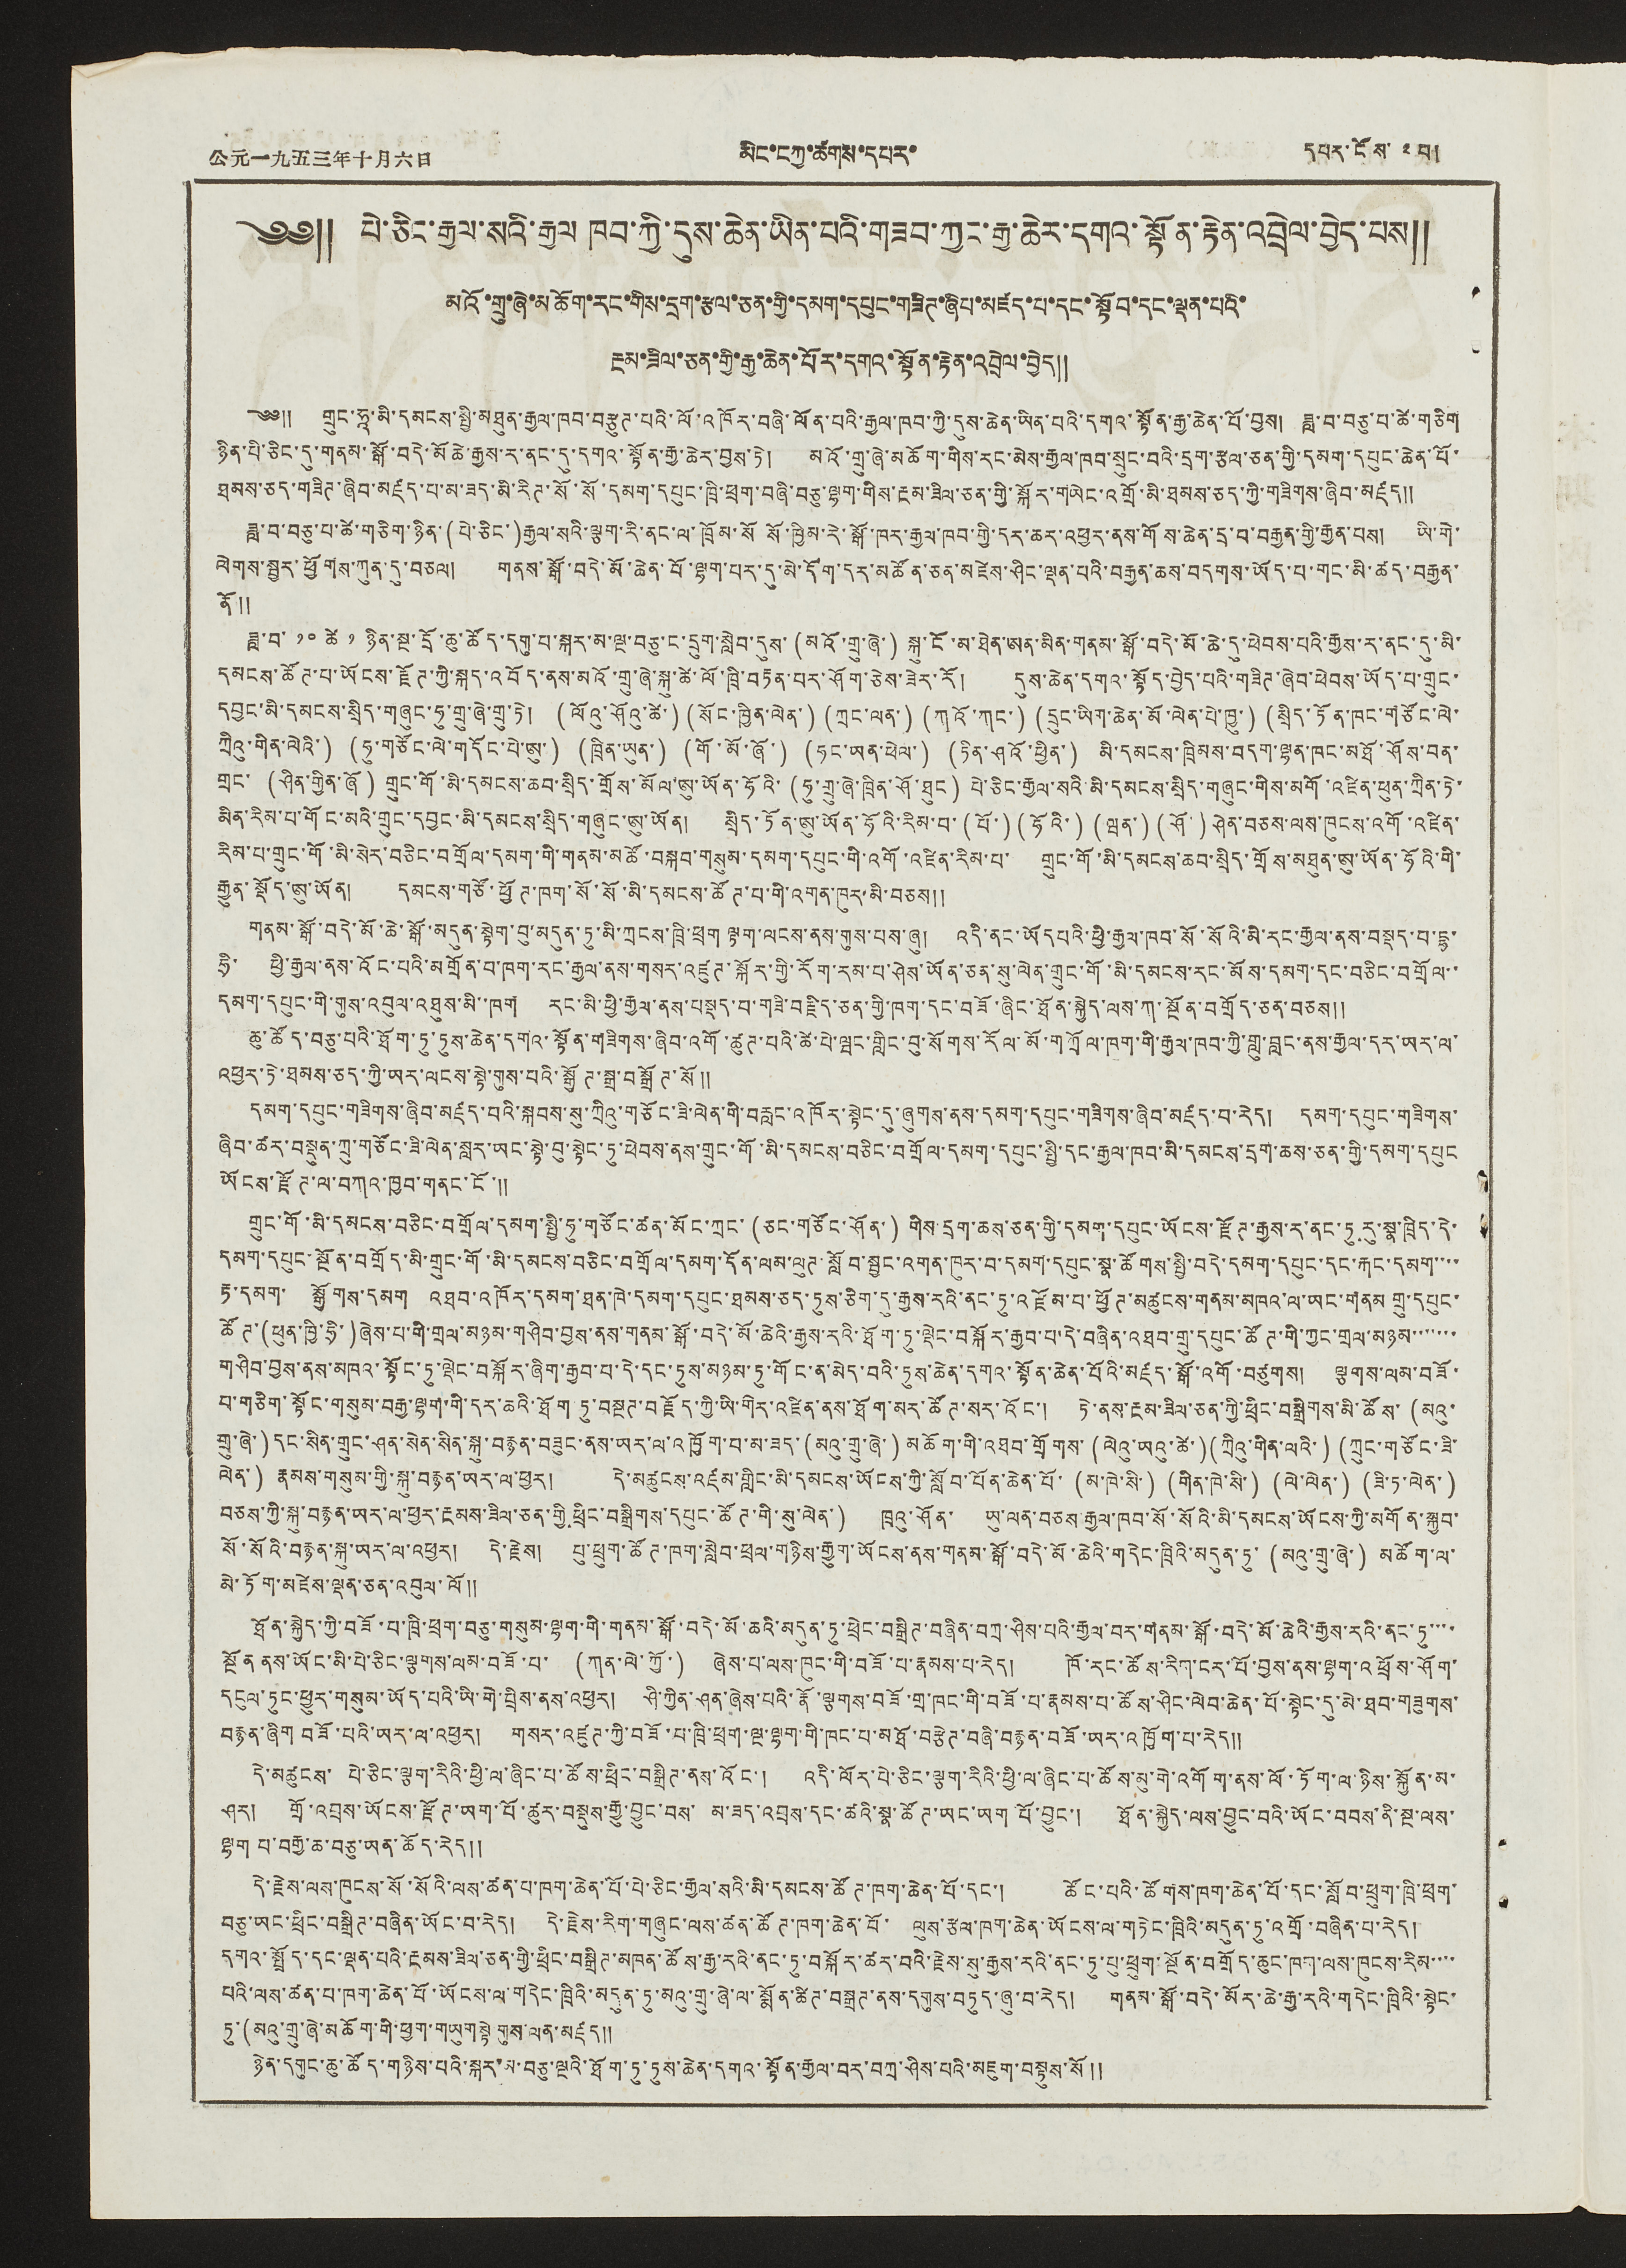公元一九五三年十月六日 མིང་ངཀྱ་ཚགས་དཔར་ དཔར་ངོས་ ༢བ།
༄༅༎ པེ་ཅིང་རྒྱལ་སའི་རྒྱལ ཁབ་ཀྱི་དུས་ཆེན་ཡིན་པའི་གཟབ་ཀྱང་རྒྱ་ཆེར་དགའ་སྟོན་རྟེན་འབྲེལ་བྱེད་པས༎
མའོ་གྲུ་ཞེ་མཆོག་རང་གིས་དྲག་རྩལ་ཅན་གྱི་དམག་དཔུང་གཟིཊ་ཞིབ་མཛད་པ་དང་སྟོབ་དང་ལྡན་པའི་
རྔམ་ཟིལ་ཅན་གྱི་རྒྱ་ཆེན་པོར་དགའ་སྟོན་རྟེན་འབྲེལ་བྱེད༎
༄༅༎ གྲུང་ཧཱ་མི་དམངས་སྤྱི་མཐུན་རྒྱལ་ཁབ་བརྩུཊ་པའི་ལོ་འཁོར་བཞི་ལོན་པའི་རྒྱལ་ཁབ་ཀྱི་དུས་ཆེན་ཡིན་པའི་དགའ་སྟོན་རྒྱ་ཆེན་པོ་བྱས། ཟླ་བ་བཅུ་པ་ཚེ་གཅིག
ཉིན་པི་ཅིང་དུ་གནམ་སྒོ་བདེ་མོ ཆེ་རྒྱས་ར་ནང་དུ་དགའ་སྟོན་རྒྱ་ཆེར་བྱས་ཏེ། མའོ་གྲུ་ཞེ་མཆོག་གིས་རང་མེས་རྒྱལ་ཁབ་སྲུང་བའི་དྲག་རྩལ་ཅན་གྱི་དམག་དཔུང་ཆེན་པོ་
ཐམས་ཅད་གཟིཊ་ཞིབ་མཛད་པ་མ་ཟད་མི་རིཊ་སོ་སོ་དམག་དཔུང་ཁྲི་ཕྲག་བཞི་བཅུ་ལྷག་གིས་རྔམ་ཟིལ་ཅན་གྱི་སྐོར་གཡེང་འགྲོ་མི་ཐམས་ཅད་ཀྱི་གཟིགས་ཞིབ་མཛད༎
ཟླ་བ་བཅུ་པ་ཚེ་གཅིག་ཉིན་(པེ་ཅིང་)རྒྱལ་སའི་ལྕག་རི་ནང་ལ་ཁྲོམ་སོ སོ་ཁྱིམ་རེ་སྒོ་ཁར་རྒྱལ་ཁབ་གྱི་དར་ཆར་འཕྱར་ནས་གོས་ཆེན་དྲ་བ་བརྒྱན་གྱི་རྒྱན་པས། ཡི་གེ་
ལེགས་སྦྱར་ཕྱོགས་ཀུན་དུ་བཅལ། གནས་སྒོ་བདེ་མོ་ཆེན་པོ་ལྷག་པར་དུ་མེ་དོག་དར་མཚོན་ཅན་མཛེས་ཤིང་ལྡན་པའི་བརྒྱན་ཆས་བདགས་ཡོད་པ་གང་མི་ཚད་བརྒྱན་
ནོ༎
ཟླ་བ་ ༡༠ ཚེ ༡ ཉིན་སྔ་དྲོ་ཆུ་ཚོད་དགུ་པ་སྐར་མ་ལྔ་བཅུ་ང་དྲུག་སླེབ་དུས་(མའོ་གྲུ་ཞེ་) སྐུ་ངོ་མ་ཐེན་ཨན་མིན་གནམ་སྒོ་བདེ་མོ་ཆེ་དུ་ཕེབས་པའི་རྒྱས་ར་ནང་དུ་མི་
དམངས་ཚོཊ་པ་ཡོངས་རྫོཊ་ཀྱི་སྐད་འབོད་ནས་མའོ་གྲུ་ཞེ་སྐུ་ཚེ་ལོ་ཁྲི་བརྟན་པར་ཤོག་ཅེས་ཟེར་རོ། དུས་ཆེན་དགའ་སྟོད་བྱེད་པའི་གཟིཊ་ཞེབ་ཕེབས་ཡོད་པ་གྲུང་
དབྱང་མི་དམངས་སྲིད་གཞུང་ཧུ་གྲུ་ཞེ་གྲུ་ཏེ། (ལོའུ་ཤོའུ་ཚེ་) (སོང་ཁྱིན་ལེན་) (ཀྲང་ལན་) (ཀའོ་ཀང་) (ཀྲུང་ཡིག་ཆེན་མོ་ལེན་པེ་ཁྱུ་) (སྲིད་ཏོན་ཁང་གཙོང་ལེ་
ཀྲིའུ་གིན་ལེའི་) (ཧུ་གཙོང་ལེ་གདོང་པེ་ཨུ་) (ཁྲིན་ཡུན་) (གོ་མོ་ཞོ་) (ཧང་ཡན་ཕེལ་) (ཏིན་ཤའོ་ཕྱིན་) མི་དམངས་ཁྲིམས་བདག་ལྷན་ཁང་མཐོ་ཤོས་བན་
གྲང་ (ཤིན་གྱིན་ཞོ) གྲུང་གོ་མི་དམངས་ཆབ་སྲིད་གྲོས་མོལ་ཨུ་ཡོན་ཧོའི་ (ཧུ་གྲུ་ཞེ་ཁྲིན་ཤོ་ཐུང) པེ་ཅིང་རྒྱལ་སའི་མི་དམངས་སྲིད་གཞུང་གིས་མགོ་འཛིན་ཕུན་ཀྲིན་ཏེ་
མིན་རིམ་པ་གོང་མའི་གྲུང་དབྱང་མི་དམངས་སྲིད་གཞུང་ཨུ་ཡོན། སྲིད་ཏོན་ཨུ་ཡོན་ཧོའི་རིམ་པ་ (པོ་) (ཧོའི་) (ཝན་) (ཤོ་) ཤེན་བཅས་ལས་ཁུངས་འགོ་འཛིན་
རིམ་པ་གྲུང་གོ་མི་སེར་བཅིང་བགྲོལ་དམག་གི་གནམ་མཚོ་བསྐབ་གསུམ་དམག་དཔུང་གི་འགོ་འཛིན་རིམ་པ་ གྲུང་གོ་མི་དམངས་ཆབ་སྲིད་གྲོས་མཐུན་ཨུ་ཡོན་ཧོའི་གི་
རྒྱུན་སྡོད་ཨུ་ཡོན། དམངས་གཙོ་ཕྱོཊ་ཁག་སོ་སོ་མི་དམངས་ཚོཊ་པ་གི་འགན་ཁུར་མི་བཅས༎
གནམ་སྒོ་བདེ་མོ་ཆེ་སྒོ་མདུན་སྟེག་བུ་མདུན་ཏུ་མི་ཀྲངས་ཁྲི་ཕྲག ལྟག་ལངས་ནས་གུས་པས་ཞུ། འདི་ནང་ཡོད པའི་ཕྱི་རྒྱལ་ཁབ་སོ་སོའི་མི་རང་རྒྱལ་ནས་བསྡད་པ་དྷ་
ཧྲི་ ཕྱི་རྒྱལ་ནས་འོང་པའི་མགྲོན་བ་ཁག་རང་རྒྱལ་ནས་གསར་འཛུཊ་སྐོར་གྱི་རོག་རམ་པ་ཤེས་ཡོན་ཅན་སུ་ལེན་གྲུང་གོ་མི་དམངས་རང་མོས་དམག་དང་བཅིང་བགྲོལ་་
དམག་དཔུང་གི་གུས་འབུལ་འཐུས་མི་་ཁག རང་མི་ཕྱི་རྒྱལ་ནས་བསྡད་བ་གཟི་བརྗིད་ཅན་གྱི་ཁག་དང་བཟོ་ཞིང་ཐོན་སྐྱེད་ལས་ཀ་སྔོན་བགྲོད་ཅན་བཅས༎
ཆུ་ཚོད་བཅུ་པའི་ཐོག་ཏུ་ཏུས་ཆེན་དགའ་སྟོན་གཟིགས་ཞིབ་འགོ་ཚུཊ་པའི་ཚེ་པེ་ལྦང་གླིང་བུ་སོགས་རོལ་མོ་གཀྲོལ་ཁག་གི་རྒྱལ་ཁབ་ཀྱི་གླུ་བླང་ནས་རྒྱལ་དར་ཡར་ལ་
འཕྱར་ཏེ་ཐམས་ཅད་ཀྱི་ཡར་ལངས་སྟེ་གུས་པའི་སྒྱོཊ་སྒྲ་བསྒྲོཊ་སོ༎
དམག་དཔུང་གཟིགས་ཞིབ་མཛད་པའི་སྐབས་སུ་ཀྲིའུ་གཅོང་ཟི་ལེན་གི་བརླང་འཁོར་སྟེང་དུ་ཞུགས་ནས་དམག་དཔུང་གཟིགས་ཞིབ་མཛད་བ་རེད། དམག་དཔུང་གཟིགས་
ཞིབ་ཚར་བསྡུན་ཀྲུ་གཙོང་ཟི་ལེན་སླར་ཡང་སྟེ་བུ་སྟེང་ཏུ་ཕེབས་ནས་གྲུང་གོ་མི་དམངས་བཅིང་བགྲོལ་དམག་དཔུང་སྤྱི་དང་རྒྱལ་ཁབ་མི་དམངས་དྲག་ཆས་ཅན་གྱི་དམག་དཔུང
ཡོངས་རྫོཊ་ལ་བཀའ་ཁྱབ་གནང་ངོ་༎
གྲུང་གོ་མི་དམངས་བཅིང་བགྲོལ་དམག་སྤྱི་ཧུ་གཙོང་ཚན་མོང་ཀྲང་ (ཅང་གཙོང་ཤོན་) གིས དྲག་ཆས་ཅན་གྱི་དམག་དཔུང་ཡོངས་རྫོཊ་རྒྱས་ར་ནང་ཏུ རུ་སྣ་ཁྲིད་དེ་
དམག་དཔུང་སྔོན་བགྲོད་མི་གྲུང་གོ་མི་དམངས་བཅིང་བགྲོལ་དམག་དོན་ལམ་ལུཊ་སློབ་སྦྱང་འགན་ཁུར་བ་དམག་དཔུང་སྣ་ཚོགས་སྤྱི་བདེ་དམག་དཔུང་དང་རྐང་དམག་་་་
རྟ་དམག་ སྒྱོགས་དམག འཐབ་འཁོར་དམག་ཐན་ཁེ་དམག་དཔུང་ཐམས་ཅད་ཏུས་ཅིག་དུ་རྒྱས་རའི་ནང་ཏུ་འཛོམ་པ་ཕྱོཊ་མཚུངས་གནས་མཁའ་ལ་ཡང་གནམ་གྲུ་དཔུང་
ཚོཊ་(ཕུན་ཁྱི་ཧྲི་)ཞེས་པ་གི་གྲལ་མཉམ་གཤིབ་བྱས་ནས་གནམ་སྒོ་བདེ་མོ་ཆེའི་རྒྱས་རའི་ཐོག་ཏུ་ལྡེང་བསྐོར་རྒྱབ་པ་དེ་བཞིན་འཐབ་གྲུ་དཔུང་ཚོཊ་གི་ཀྱང་གྲལ་མཉམ་་་་་་་
གཤིབ་བྱས་ནས་མཁའ་སྟོང་ཏུ་ལྡེང་བསྐོར་ཞིག་རྒྱབ་པ་དེ་དང་ཏུས་མཉམ་ཏུ་གོང་ན་མེད་བའི་ཏུས་ཆེན་དགའ་སྟོན་ཆེན་པོའི་མཛད་སྒོ་འགོ་བཙུགས། ལྕགས་ལམ་བཟོ་
བ་གཅིག་སྟོང་གསུམ་བརྒྱ་ལྷག་གི་དར་ཆའི་ཐོག ཏུ་བསྔཊ་བརྗོད་ཀྱི་ཡི་གེར་འཛིན་ནས་ཐོག་མར་ཚོཊ་སར་འོང་། ཏེ་ནས་རྔམ་ཟིལ་ཅན་ཀྱི་ཕྲིང་བསྒྲིགས་མི་ཚོས་ (མའུ་
གྲུ་ཞེ་)དང་སིན་གྲུང་ཤན་སེན་སིན་སྐུ་བརྙན་བཟུང་ནས་ཡར་ལ་འཁྱོག་པ་མ་ཟད་ (མའུ་གྲུ་ཞེ་) མཆོག་གི་འཐབ་གྲོགས་ (ལེའུ་ཡའུ་ཚེ་) (ཀྲིའུ་གིན་ལའི་) (ཀྲུང་གཙོང་ཟི་
ལེན་) རྣམས་གསུམ་གྱི་སྐུ་བརྙན་ཡར་ལ་ཕྱར། དེ་མཚུངས་འཛམ་གླིང་མི་དམངས་ཡོངས་ཀྱི་སློབ་པོན་ཆེན་པོ་ (མ་ཁེ་སི་) (གིན་ཁེ་སི་) (ལེ་ལེན་) (ཟི་ཏ་ལེན་)
བཅས་ཀྱི་སྐུ་བརྙན་ཡར་ལ་ཕྱར་རྔམས་ཟིལ་ཅན་གྱི་ཕྲིང་བསྒྲིགས་དཔུང་ཚོཊ་གི་སུ་ལེན་) ཁྲའུ་ཤོན་ ཡུ་ལན་བཅས རྒྱལ་ཁབ་སོ་སོའི་མི་དམངས་ཡོངས་ཀྱི་མགོན་སྐྱབ་
སོ་སོའི་བརྙན་སྐུ་ཡར་ལ་འཕྱར། དེ་རྗེས། པུ་ཕྲུག་ཚོཊ་ཁག་སླེབ་ཕྲལ་གཉིས་རྒྱུག་ཡོངས་ནས་གནམ་སྒོ་བདེ་མོ་ཆེའི་གདེང་ཁྲིའི་མདུན་ཏུ་ (མའུ་གྲུ་ཞེ་) མཆོག་ལ་
མེ་ཏོག་མཛེས་ལྡན་ཅན་འབུལ་ལོ༎
ཐོན་སྐྱེད་ཀྱི་བཟོ་པ་ཁྲི་ཕྲག་བཅུ་གསུམ་ལྷག་གི་གནམ་སྒོ་བདེ་མོ་ཆའི་མདུན་ཏུ་ཕྲེང་བསྒྲིཊ་བཞིན་བཀྲ་ཤིས་པའི་རྒྱལ་བར་གནམ་སྒོ་བདེ་མོ་ཆེའི་རྒྱས་རའི་ནང་ཏུ་་་་
སྔོན ནས་ཡོང་མི་པེ་ཅིང་ལྕགས་ལམ་བཟོ་པ་ (ཀན་ལེ་ཀྱོ་) ཞེས་པ་ལས་ཁུང་གི་བཟོ་པ་རྣམས་པ་རེད། ཁོ་རང་ཚོས་རིག་ངར་པོ་བྱས་ནས་ལྷག་འཕྲོས་ཤོག་
དངུལ་ཏུང་ཕྱུར་གསུམ་ཡོད་པའི་ཡི་གེ་བྲེས་ནས་འཕྱར། ཤི་ཀྱིན་ཤན་ཞེས་པའི་རྣོ་ལྕགས་བཟོ་གྲ་ཁང་གི་བཟོ་པ་རྣམས་པ་ཚོས་ཤིང་ལེབ་ཆེན་པོ་སྟེང་དུ་མེ་ཐབ་གཟུགས་
བརྙན་ཞིག བཟོ་པའི་ཡར་ལ་འཕྱར། གསར་འཛུཊ་ཀྱི་བཟོ་པ་ཁྲི་ཕྲག་ལྔ་ལྷག་གི་ཁང་པ་མཐོ་བརྩེཊ་བཞི་བརྙན་བཟོ་ཡར་འཁྱོག་པ་རེད༎
དེ་མཚུངས་ པེ་ཅིང་ལྕག་རིའི་ཕྱི་ལ་ཞིང་པ་ཚོས་ཕྲིང་བསྒྲིཊ་ནས་འོང་། འདི་ལོར་པེ་ཅིང་ལྕག་རིའི་ཕྱི་ལ་ཞིང་པ་ཚོས་མུ་གེ་འགོག་ནས་ལོ་ཏོག་ལ་ཉིས་སྐྱོན་མ་
ཤར། གྲོ་འབྲས་ཡོངས་རྫོཊ་ཡག་པོ་ཚུར་བསྡུས་རྒྱུ་བྱུང་བས་ མ་ཟད་འབྲས་དང་ཚའི་སྣ་ཚོཊ་ཡང་ཡག པོ་བྱུང་། ཐོན་སྐྱེད་ལས་བྱུང་བའི་ཡོང་བབས་ནི་སྔ་ལས་
ལྷག པ་བརྒྱ་ཆ་བཅུ་ཡན་ཆོད་རེད༎
དེ་རྗེས་ལས་ཁུངས་སོ་སོའི་ལས་ཚན་པ་ཁག་ཆེན་པོ་པེ་ཅིང་རྒྱལ་སའི་མི་དམངས་ཚོཊ་ཁག་ཆེན་པོ་དང་། ཚོང་པའི་ཚོགས་ཁག་ཆེན་པོ་དང་སློབ་ཕྲུག་ཁྲི་ཕྲག་
བཅུ་ཡང་ཕྲིང་བསྒྲིཊ་བཞིན་ཡོང་བ་རེད། དེ་རྗེས་རིག་གཞུང་ལས་ཚན་ཚོཊ་ཁག་ཆེན་པོ་ ལུས་རྩལ་ཁག་ཆེན་ཡོངས་ལ་གཏེང་ཁྲིའི་མདུན་ཏུ་འགྲོ་བཞིན་པ་རེད།
དགའ་སྤྲོད་དང་ལྡན་པའི་རྔམས་ཟིལ་ཅན་གྱི་ཕྲིང་བསྒྲིཊ་མཁན་ཚོས་རྒྱ་རའི་ནང་ཏུ་བསྐོར་ཚར་བའི་རྗེས་སུ་རྒྱས་རའི་ནང་ཏུ་པུ་ཕྲུག་སྔོན་བགྲོད་ཆུང་ཁག་ལས་ཁུངས་རིམ་་་་
པའི་ལས་ཚན་པ་ཁག་ཆེན་པོ་ཡོངས་ལ་གདེང་ཁྲིའི་མདུན་ཏུ་མའུ་གྲུ་ཞེ་ལ་སྨོན་ཚིཊ་བསྒྲཊ་ནས་དགུས་བཏུད་ཞུ་བ་རེད། གནམ་སྒོ་བདེ་མོར་ཆེ་རྒྱ་རའི་གདེང་ཁྲིའི་སྟེང་
ཏུ་(མའུ་གྲུ་ཞེ་མཆོག་གི་ཕྱག་གཡུག སྟེ གུས་ལན་མཛད༎
ཉིན་དགུང་ཆུ་ཚོད་གཉིས་པའི་སྐར་མ་བཅུ་ལྔའི་ཐོག་ཏུ་དུས་ཆེན་དགའ་སྟོན་རྒྱལ་བར་བཀྲ་ཤིས་པའི་མཇུག་བསྡུས་སོ༎
